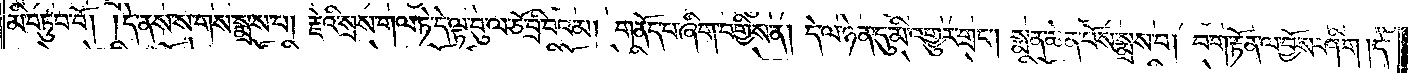མི་བཏུབ་བོ། །དེ་ནས་ས་གས་སྨྲས་པ། རྗེའི་སྲས་གལ་ཏེ་དེ་ལྟ་བུ་ལ་ཅོ་བྲི་བའམ། གནོད་པ་ཞིག་བགྱིས་ན། དེ་ལ་ཉེན་དུ་མི་འགྱུར་གྲང༌། སྨན་ཆེན་པོས་སྨྲས་པ། བག་རྟོན་ལ་བྱོས་ཤིག །དེ་
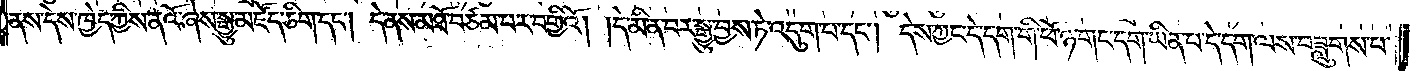ནས་དེས་ཁྱེད་ཀྱིས་ནའོ་ཞེས་སྒྱུ་མཛོད་ཅིག་དང༌། དེ་ནས་མཐོ་བཙམ་པར་བགྱིའོ། །དེ་མི་ན་བར་སྒྱུ་བྱས་ཏེ་འདུག་པ་དང༌། དེས་ཀྱང་དེ་དག་གི་ཕོ་ཉ་གང་དག་ཡིན་པ་དེ་དག་ལས་བཟླུགས་པ་
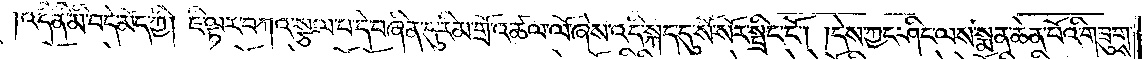འདི་ནི་མི་བདེ་མོད་ཀྱི། ཇི་ལྟར་བཀའ་སྩལ་པ་དེ་བཞིན་དུ་རིམ་གྲོ་འཚལ་ལོ་ཞེས་འདི་སྐད་དུ་སོ་སོར་སྤྲིང་ངོ༌། །དེས་ཀྱང་ཤིང་ལས་སྨན་ཆེན་པོའི་གཟུགས་
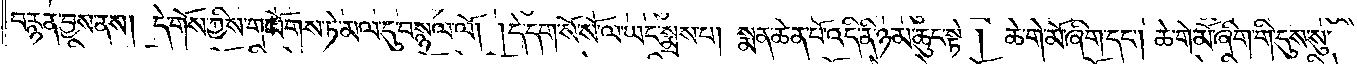བརྙན་བྱས་ནས། དེ་གོས་ཀྱིས་གཡོགས་ཏེ་མལ་དུ་བསྙལ་ལོ། །དེ་དག་སོ་སོ་ལ་ཡང་སྨྲས་པ། སྨན་ཆེན་པོ་འདི་ནི་ཉམ་ཆུང་སྟེ། ཆེ་གེ་མོ་ཞིག་དང༌། ཆེ་གེ་མོ་ཞིག་གི་དུས་སུ་
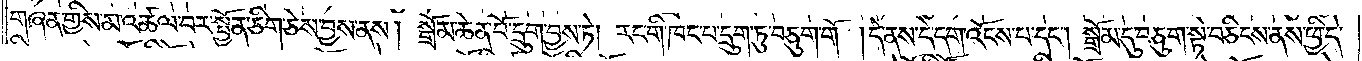གཞན་གྱིས་མ་འཚལ་བར་སྤྱོན་ཅིག་ཅེས་བྱས་ནས། སྒྲོམ་ཆེན་པོ་དྲུག་བྱས་ཏེ། རང་གི་ཁང་པ་དྲུག་ཏུ་བཅུག་གོ །དེ་ནས་དེ་དག་འོངས་པ་དང༌། སྒྲོམ་དུ་བཅུག་སྟེ་བཅིངས་ནས་ཕྱི་དེ་
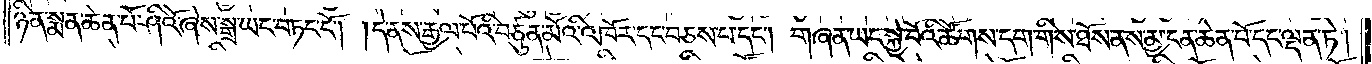ཉིན་སྨན་ཆེན་པོ་ཤིའོ་ཞེས་སྒྲ་ཡང་བཏང་ངོ༌། །དེ་ནས་རྒྱལ་པོའི་བཙུན་མོའི་འཁོར་དང་བཅས་པ་དང༌། གཞན་ཡང་སྐྱེ་བོའི་ཚོགས་དག་གིས་ཐོས་ནས་མྱ་ངན་ཆེན་པོ་དང་ལྡན་ཏེ།
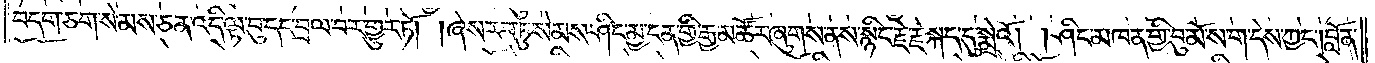བདག་ཅག་སེམས་ཅན་འདི་ལྟ་བུ་དང་བྲལ་བར་གྱུར་ཏོ། །ཞེས་རབ་ཏུ་སེམས་ཤིང་མྱ་ངན་གྱི་རྒྱ་མཚོར་ཞུགས་ནས་སྙིང་རྗེ་རྗེ་སྐད་དུ་སྨྲེའོ། །ཤིང་མཁན་གྱི་བུ་མོ་ས་ག་དེས་ཀྱང༌། བློན་
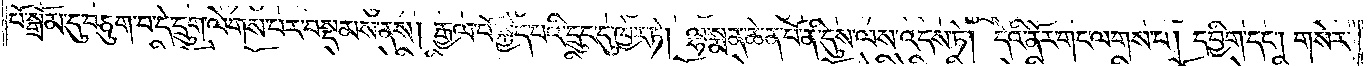པོ་སྒྲོམ་དུ་བཅུག་པ་དེ་དྲུག་ལེགས་པར་བསྡམས་ནས། རྒྱལ་པོ་སྐྱེད་པའི་དྲུང་དུ་ཁྱེར་ཏེ། ལྷ་སྨན་ཆེན་པོ་ནི་དུས་ལས་འདས་ཏེ། དེའི་ནོར་གང་ལགས་པ། དབྱིག་དང༌། གསེར་
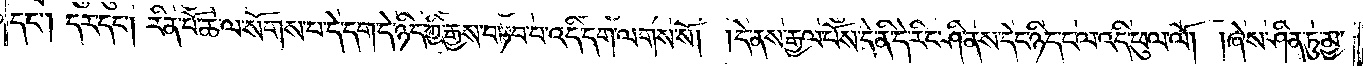དང༌། དར་དང༌། རིན་པོ་ཆེ་ལ་སོགས་པ་དེ་དག་དེ་ཉིད་ཀྱི་རྒྱས་བཏབ་པ་འདི་དག་ལགས་སོ། །དེ་ནས་རྒྱལ་པོས་དེ་ནི་དེ་རིང་ཤི་ནས་དེང་ཉིད་ངལ་འདི་ཕུལ་ལོ། །ཞེས་ཤིན་ཏུ་མྱ་
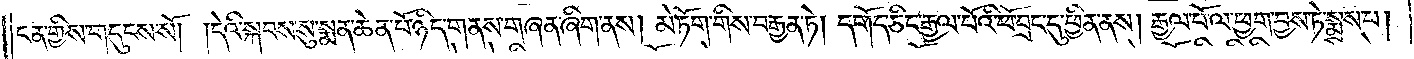ངན་གྱིས་གདུངས་སོ། །དེའི་སྐབས་སུ་སྨན་ཆེན་པོ་ཉིད་གནས་གཞན་ཞིག་ནས། མེ་ཏོག་གིས་བརྒྱན་ཏེ། དགོད་ཅིང་རྒྱལ་པོའི་ཕོ་བྲང་དུ་ཕྱིན་ནས། རྒྱལ་པོ་ལ་ཕྱག་བྱས་ཏེ་སྨྲས་པ།
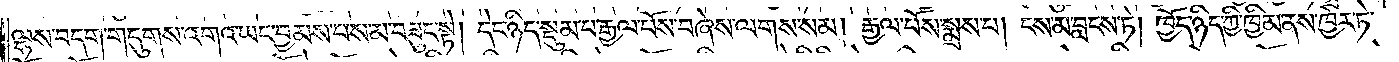ལྷས་བདག་གདུགས་འགའ་ཡང་བྱམས་པས་མ་བཟུང་སྟེ། དེང་ཉིད་སྡུམ་པ་རྒྱལ་པོས་བཞེས་ལགས་སམ། རྒྱལ་པོས་སྨྲས་པ། ངས་མ་བླངས་ཏེ། ཁྱོད་ཉིད་ཀྱི་ཁྱིམ་ནས་ཁྱེར་ཏེ་
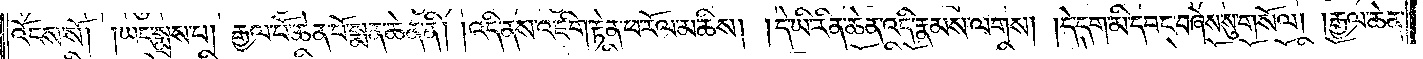འོངས་སོ། །ཡང་སྨྲས་པ། རྒྱལ་པོ་ཆེན་པོ་སྨན་ཆེན་ནི། །འདི་ནས་འཇིག་རྟེན་ཕ་རོལ་མཆིས། །དེ་ཡི་རིན་ཆེན་འདི་རྣམས་ལགས། །དེ་དག་མི་དབང་བཞེས་སུ་གསོལ། །རྒྱལ་ཆེན་
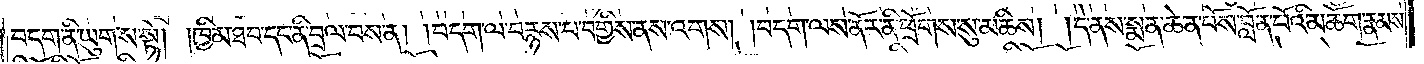བདག་ནི་ཡུགས་སྟེ། །ཁྱིམ་ཐབ་དང་ནི་བྲལ་བས་ན། བདག་ལ་བརྙས་པ་བགྱིས་ནས་འགས། །བདག་ལས་ནོར་ནི་ཕྲོགས་སུ་མཆིས། །དེ་ནས་སྨན་ཆེན་པོས་བློན་པོའི་མཆོག་རྣམས་
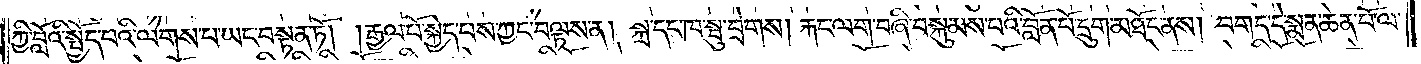ཀྱི་བློའི་སྤྱོད་པའི་ལེགས་པ་ཡང་བསྟན་ཏོ། །རྒྱལ་པོ་སྐྱེད་པས་ཀྱང་བལྟས་ན། སྐྲ་དང་ཁ་སྤུ་བྲེགས་།རྐང་ལག་བཞི་བསྐུམས་པའི་བློན་པོ་དྲུག་མཐོང་ནས། བགད་དེ་སྨན་ཆེན་པོ་ལ་
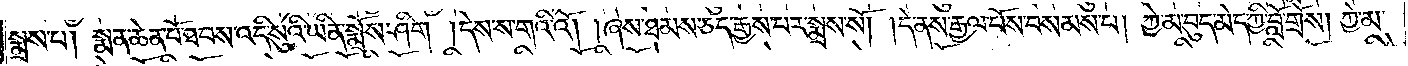སྨྲས་པ། སྨན་ཆེན་པོ་ཐབས་འདི་སུའི་ཡིན་སྨྲོས་ཤིག །དེས་ས་གའི་འོ། །ཞེས་ཐམས་ཅད་རྒྱས་པར་སྨྲས་སོ། །དེ་ནས་རྒྱལ་པོས་བསམས་པ། ཀྱེ་མ་བུད་མེད་ཀྱི་བློ་གྲོས། ཀྱེ་མ་
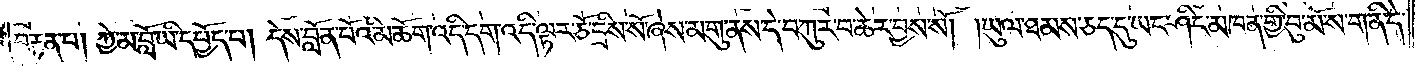བརྟན་པ། ཀྱེ་མ་བློ་ཡི་དཔྱོད་པ། དེས་བློན་པོའི་མཆོག་འདི་དག་འདི་ལྟར་ཅོ་དྲིས་སོ་ཞེས་མགུ་ནས་དེ་བཀུར་བ་ཆེར་བྱས་སོ། །ཡུལ་ཐམས་ཅད་དུ་ཡང་ཤིང་མཁན་གྱི་བུ་མོ་ས་ག་ནི་དེ་
